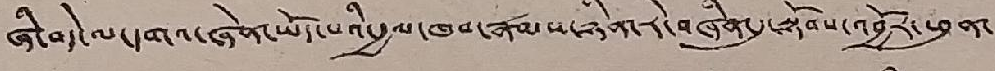ཞི་བདེ་ལ་དགའ་ཞེན་ཡོད་པའི་རྒྱལ་ཁབ་རྣམས་ཉིན་རེ་བཞིན་དུ་སྟོབས་འབྱོར་ཕུན་
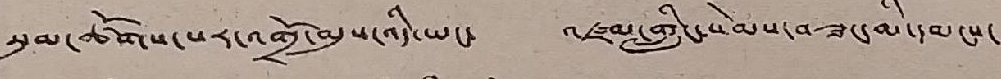སུམ་ཚོགས་པར་འགྲོ་མུས་འདི་ཡང་ འཛམ་གླིང་སེམས་བཟང་མི་དམངས་
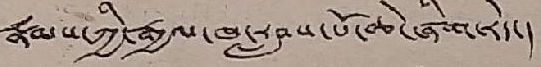རྣམས་ཀྱི་རྒྱལ་ཁ་རླབས་པོ་ཆེ་ཞིག་རེད་།
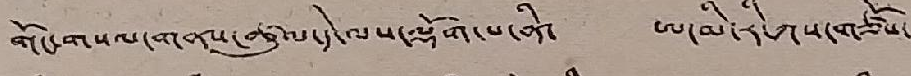གོང་གསལ་གནས་ཚུལ་དེ་ལས་ལྡོག་པ་ནི་ ཨ་མི་རི་ཀས་གཙོས་
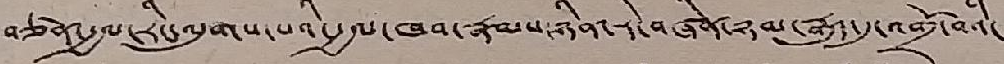བཙན་རྒྱལ་རིང་ལུགས་པའི་རྒྱལ་ཁབ་རྣམས་ཉིན་རེ་བཞིན་ཉམ་རྒྱུད་དུ་འགྲོ་བའི་
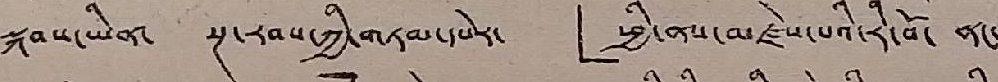སྐབས་ཡིན་ སྔ་རབས་ཀྱི་གཏམ་དཔེར་ 「ཕྱི་ནས་མཛེས་པའི་རི་བོ་ ནང་
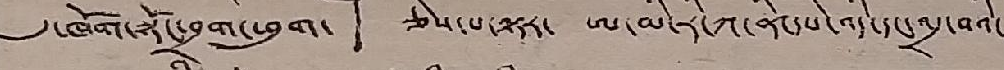དུ་ཁོག་སྟོང་བྲག་ཕུག་」 ཅེས་པ་ལྟར་ ཨ་མི་རི་ཀ་ནི་དཔེ་འདི་དང་འདྲ་བའི་
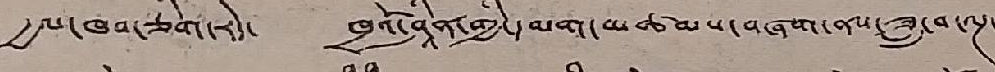རྒྱལ་ཁབ་ཅིག་རེད། ཁྲའོ་ཤཱིན་གྱི་དམག་མཚམས་བཞག་ནས་ཟླ་བ་ལྔ་
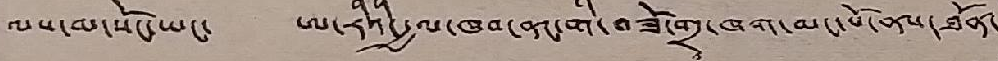ལས་མ་སོང་ཡང་ ཨ་རིའི་རྒྱལ་ཁབ་ནང་གི་བཟོ་གྲྭ་ཁག་མང་པོ་ནས་ཐོན་
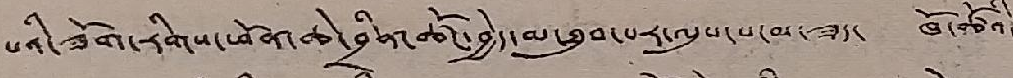པའི་ཟོག་རིགས་ཕོན་ཆེ་བྲིན་ཚོང་བྱེད་མ་ཐུབ་པར་ལུས་པ་མ་ཟད་ ཁོ་ཚོའི་
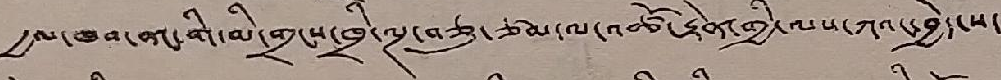རྒྱལ་ཁབ་ནང་གི་མི་གྲངས་ཁྲི་ལྔ་བཅུ་ཙམ་ལ་འཚོ་རྟེན་གྱི་ལས་ཀའང་བྱེད་ས་
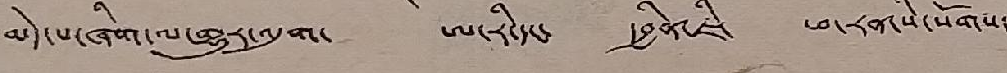མེད་པ་ཞིག་ལ་གྱུར་འདུག་ ཨ་རི་དང་ དབྱིན་ཇི་ ཕ་རན་སི་སོགས་
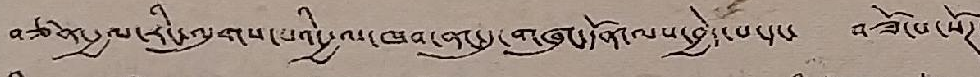བཙན་རྒྱལ་རིང་ལུགས་པའི་རྒྱལ་ཁབ་ནང་དུ་གཞུང་དོན་ལས་བྱེད་པ་དང་ བཟོ་པ་སོཊ་
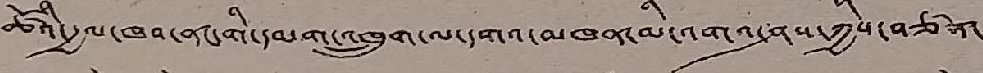ཚོའི་རྒྱལ་ཁབ་ནང་གི་དམག་འཁྲུག་ལ་དགའ་མཁན་མི་འགའ་ཤས་ཀྱིས་བཙན་
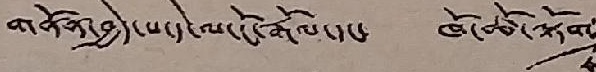གནོན་བྱེད་པ་དེ་ལ་ངོ་རྒོལ་དང་ ཁོ་ཚོ་ལྟོག
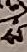ས
